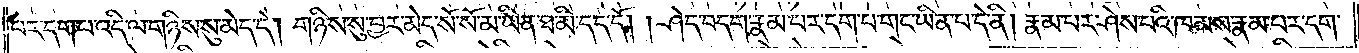པར་དག་པ་འདི་ལ་གཉིས་སུ་མེད་དེ། གཉིས་སུ་བྱར་མེད་སོ་སོ་མ་ཡིན་ཐ་མི་དད་དོ། །ཤེད་བདག་རྣམ་པར་དག་པ་གང་ཡིན་པ་དེ་ནི། རྣམ་པར་ཤེས་པའི་ཁམས་རྣམ་པར་དག་
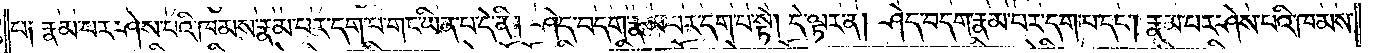པ༑ རྣམ་པར་ཤེས་པའི་ཁམས་རྣམ་པར་དག་པ་གང་ཡིན་པ་དེ་ནི། ཤེད་བདག་རྣམ་པར་དག་པ་སྟེ། དེ་ལྟར་ན། ཤེད་བདག་རྣམ་པར་དག་པ་དང༌། རྣམ་པར་ཤེས་པའི་ཁམས་
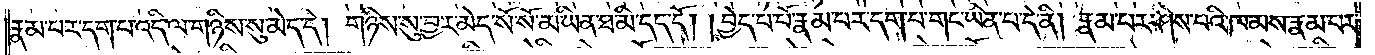རྣམ་པར་དག་པ་འདི་ལ་གཉིས་སུ་མེད་དེ། གཉིས་སུ་བྱར་མེད་སོ་སོ་མ་ཡིན་ཐ་མི་དད་དོ། །བྱེད་པ་པོ་རྣམ་པར་དག་པ་གང་ཡིན་པ་དེ་ནི། རྣམ་པར་ཤེས་པའི་ཁམས་རྣམ་པར་
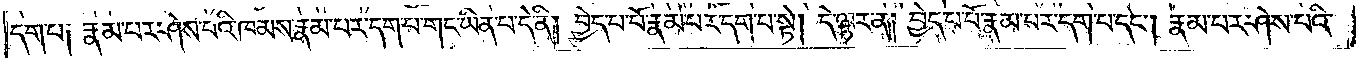དག་པ༑ རྣམ་པར་ཤེས་པའི་ཁམས་རྣམ་པར་དག་པ་གང་ཡིན་པ་དེ་ནི། བྱེད་པ་པོ་རྣམ་པར་དག་པ་སྟེ། དེ་ལྟར་ན། བྱེད་པ་པོ་རྣམ་པར་དག་པ་དང༌། རྣམ་པར་ཤེས་པའི་
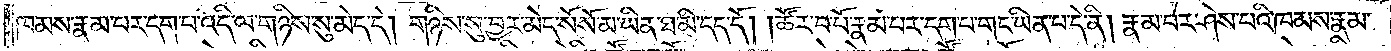ཁམས་རྣམ་པར་དག་པ་འདི་ལ་གཉིས་སུ་མེད་དེ། གཉིས་སུ་བྱར་མེད་སོ་སོ་མ་ཡིན་ཐ་མི་དད་དོ། །ཚོར་བ་པོ་རྣམ་པར་དག་པ་གང་ཡིན་པ་དེ་ནི། རྣམ་པར་ཤེས་པའི་ཁམས་རྣམ་
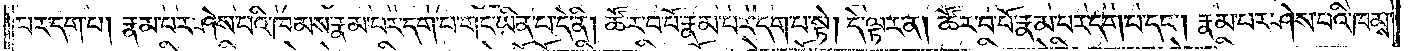པར་དག་པ། རྣམ་པར་ཤེས་པའི་ཁམས་རྣམ་པར་དག་པ་གང་ཡིན་པ་དེ་ནི། ཚོར་བ་པོ་རྣམ་པར་དག་པ་སྟེ། དེ་ལྟར་ན། ཚོར་བ་པོ་རྣམ་པར་དག་པ་དང༌། རྣམ་པར་ཤེས་པའི་ཁམས་
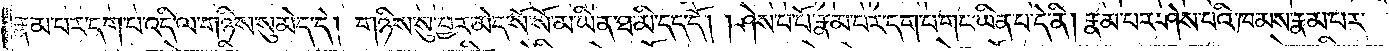རྣམ་པར་དག་པ་འདི་ལ་གཉིས་སུ་མེད་དེ། གཉིས་སུ་བྱར་མེད་སོ་སོ་མ་ཡིན་ཐ་མི་དད་དོ། །ཤེས་པ་པོ་རྣམ་པར་དག་པ་གང་ཡིན་པ་དེ་ནི། རྣམ་པར་ཤེས་པའི་ཁམས་རྣམ་པར་
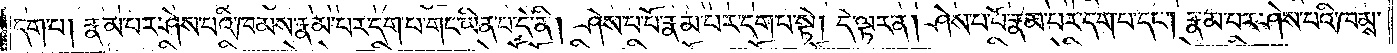དག་པ། རྣམ་པར་ཤེས་པའི་ཁམས་རྣམ་པར་དག་པ་གང་ཡིན་པ་དེ་ནི། ཤེས་པ་པོ་རྣམ་པར་དག་པ་སྟེ། དེ་ལྟར་ན། ཤེས་པ་པོ་རྣམ་པར་དག་པ་དང༌། རྣམ་པར་ཤེས་པའི་ཁམས་
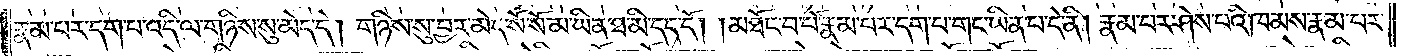རྣམ་པར་དག་པ་འདི་ལ་གཉིས་སུ་མེད་དེ། གཉིས་སུ་བྱར་མེད་སོ་སོ་མ་ཡིན་ཐ་མི་དད་དོ། །མཐོང་བ་པོ་རྣམ་པར་དག་པ་གང་ཡིན་པ་དེ་ནི། རྣམ་པར་ཤེས་པའི་ཁམས་རྣམ་པར་
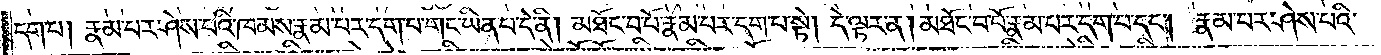དག་པ། རྣམ་པར་ཤེས་པའི་ཁམས་རྣམ་པར་དག་པ་གང་ཡིན་པ་དེ་ནི། མཐོང་བ་པོ་རྣམ་པར་དག་པ་སྟེ། དེ་ལྟར་ན། མཐོང་བ་པོ་རྣམ་པར་དག་པ་དང༌། རྣམ་པར་ཤེས་པའི་
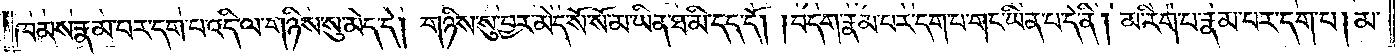ཁམས་རྣམ་པར་དག་པ་འདི་ལ་གཉིས་སུ་མེད་དེ། གཉིས་སུ་བྱར་མེད་སོ་སོ་མ་ཡིན་ཐ་མི་དད་དོ། །བདག་རྣམ་པར་དག་པ་གང་ཡིན་པ་དེ་ནི། མ་རིག་པ་རྣམ་པར་དག་པ། མ་
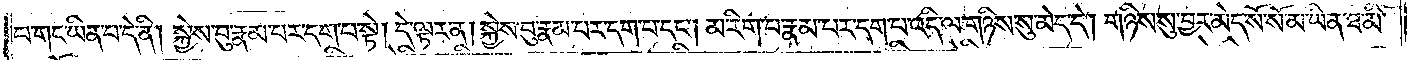པ་གང་ཡིན་པ་དེ་ནི། སྐྱེས་བུ་རྣམ་པར་དག་པ་སྟེ། དེ་ལྟར་ན། སྐྱེས་བུ་རྣམ་པར་དག་པ་དང༌། མ་རིག་པ་རྣམ་པར་དག་པ་འདི་ལ་གཉིས་སུ་མེད་དེ། གཉིས་སུ་བྱར་མེད་སོ་སོ་མ་ཡིན་ཐ་མི་
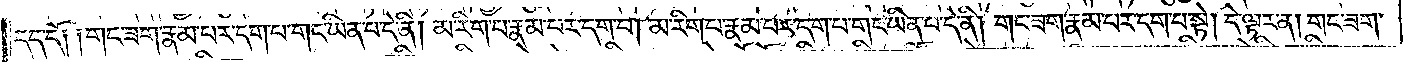དད་དོ༑ ༑གང་ཟག་རྣམ་པར་དག་པ་གང་ཡིན་པ་དེ་ནི། མ་རིག་པ་རྣམ་པར་དག་པ། མ་རིག་པ་རྣམ་པར་དག་པ་གང་ཡིན་པ་དེ་ནི། གང་ཟག་རྣམ་པར་དག་པ་སྟེ། དེ་ལྟར་ན། གང་ཟག་
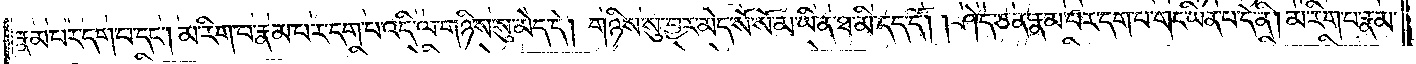རྣམ་པར་དག་པ་དང༌། མ་རིག་པ་རྣམ་པར་དག་པ་འདི་ལ་གཉིས་སུ་མེད་དེ། གཉིས་སུ་བྱར་མེད་སོ་སོ་མ་ཡིན་ཐ་མི་དད་དོ། །ཤེད་ཅན་རྣམ་པར་དག་པ་གང་ཡིན་པ་དེ་ནི། མ་རིག་པ་རྣམ་
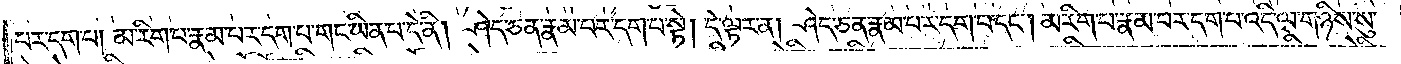པར་དག་པ། མ་རིག་པ་རྣམ་པར་དག་པ་གང་ཡིན་པ་དེ་ནི། ཤེད་ཅན་རྣམ་པར་དག་པ་སྟེ། དེ་ལྟར་ན། ཤེད་ཅན་རྣམ་པར་དག་པ་དང༌། མ་རིག་པ་རྣམ་པར་དག་པ་འདི་ལ་གཉིས་སུ་
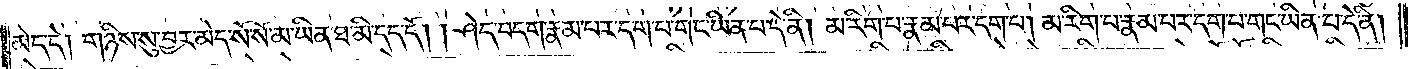མེད་དེ། གཉིས་སུ་བྱར་མེད་སོ་སོ་མ་ཡིན་ཐ་མི་དད་དོ། །ཤེད་བདག་རྣམ་པར་དག་པ་གང་ཡིན་པ་དེ་ནི། མ་རིག་པ་རྣམ་པར་དག་པ། མ་རིག་པ་རྣམ་པར་དག་པ་གང་ཡིན་པ་དེ་ནི།
